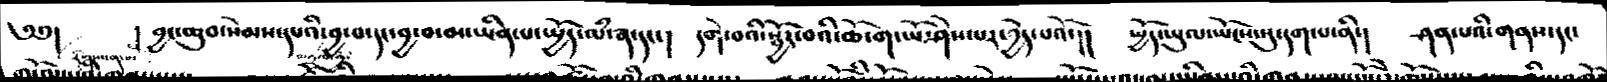༄༅།   །བྱང་ཆུབ་སེམས་དཔའི་བྱ་བ་དང་བྱ་བ་མ་ཡིན་པ་སྤྱོད་ལཾ་སྣ་དང་།    དགེ་བའི་སྦྱོར་བའི་ཆོ་ག་ཡོ་ཤེས་པར་བྱེད་པའོ་།།  སྤྱོད་ཡུལ་ཡོངས་སུ་དག་པ་ནི་།   ཤན་པའི་གནས་དང་
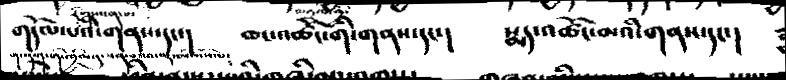གདོལ་པའི་གནས་དང་།  ཆང་འཚོང་གི་གནས་དང་།  སྨད་འཚོང་མའི་གནས་དང་།
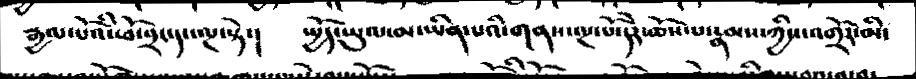རྒྱལ་པོའི་ཕོ་བྲང་དང་ལྔ་སྟེ་།  སྤྱོད་ཡུལ་མ་ཡིན་པའི་གནས་ལྔ་པོ་དེར་ཆོས་པ་རྣམས་ཀྱིས་འགྲོར་མི་
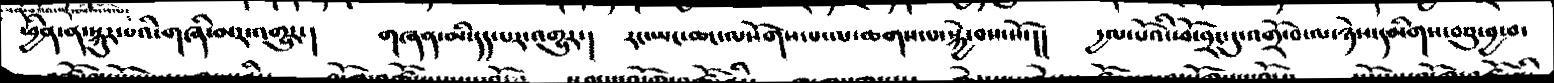ཕྱིན་ན་སྐུར་པའི་གཞི་མར་འགྱུར་།  གཞན་མི་དད་པར་འགྱུར་།  རང་ཡང་ཆང་ལསོགས་པ་ལ་ཆགས་པ་སྐྱེ་བས་སོ་།།   དྱལ་པོའི་ཕོ་བྲང་དུ་འགྲོ་བ་ལ་ཉེས་དམིགས་བཅུ་བྱ་བ་
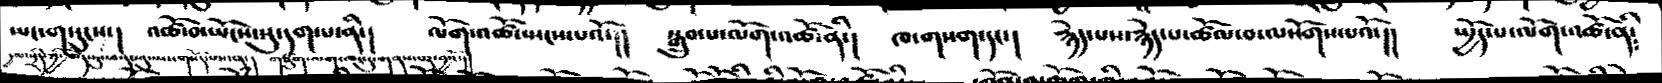ཡང་གསུངས་།  འཚོ་བ་ཡོངས་སུ་དག་པ་ནི་།  ལོག་འཚོ་སྤངས་པའོ་།།  སྒྲུབ་པ་ལོག་འཚོ་ནི་།  ཁ་གསག་དང་།  རྙེད་པས་རྙེད་པ་ཚོལ་བ་ལསོགས་པའོ་།།  སྤྱོད་པ་ལོག་འཚེ་ནི༴
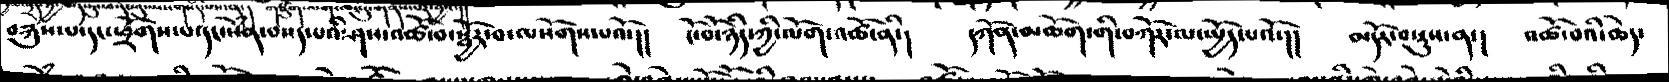བརྐུས་པ་དང་ཕྲོགས་པ་དང་སེཾན་བསད་པའི་ཤས་འཚོ་བ་སྦྱོར་བ་ལསོགས་པའོ་།།  ངོ་བོ་ཉིད་ཀྱི་ལོག་འཚོ་ནི་།  དཀོན་མཆོག་གི་བཀོར་ལ་སྤྱོད་པའོ་།།  མདོར་བསྡུས་ན་།  འཚོ་བའི་ཆེད་
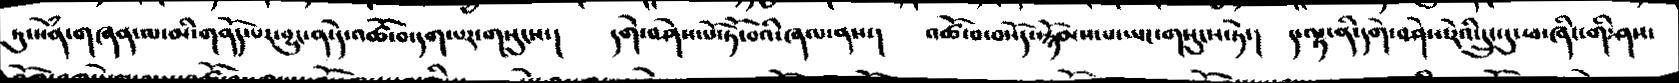ཏུ་སེཾན་གཞན་ལ་མི་གནོད་པར་བྱུང་ན་དེ་འཚོ་བ་དག་པར་གསུངས་།    དགེ་བཤེས་པོ་ཏོ་བའི་ཞལ་ནས་།  འཚོ་བ་བསོད་སྙོམས་པ་ཡང་གསུངས་ཏེ་།   ད་ལྟ་ནི་དགེ་བཤེས་རེའི་དྲུང་དུ་ཕ་ཞིང་གི་ཤས་
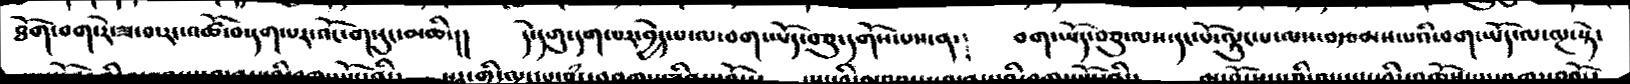ཐོག་བག་རེ་ཟ་བ་རང་འཚོ་བ་དག་པར་འོང་གསུང་མཆི་།།   ད་ེདགུ་དག་པར་བྱེད་པ་ལ་བག་ཡོད་བཅུ་དགོས་པས་ན་༴     བག་ཡོད་བཅུ་ལས་དང་པོ་ལྟུང་པ་ལས་བརྩམས་པའི་བག་ཡོད་ལ་ལྔ་སྟེ་
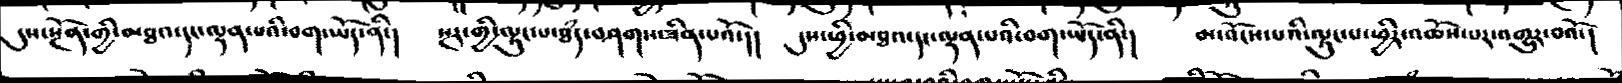དུས་སྔོན་གྱི་མཐའ་དང་ལྡན་པའི་བག་ཡོད་ནི་།   སྔར་གྱི་ལྟུང་པ་ཐཾད་བཤགས་ཟིན་པའོ་།།   དུས་ཕྱི་མཐའ་དང་ལྡན་པའི་བག་ཡོད་ནི་།   མ་འོངས་པའི་ལྟུང་པ་ཕྱིར་འཆོས་པར་འགྱུར་བའོ་།
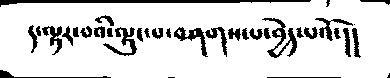ད་ལྟར་བའི་ལྟུང་བ་བཤགས་པ་བྱེད་པའོ་།།
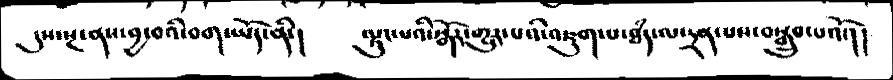དུས་སྔ་ནས་བྱ་བའི་བག་ཡོད་ནི་།    ལྟུང་པའི་སྒོར་གྱུར་པའི་འཇུག་པ་ཐཾད་ལ་དྲན་པས་བསྒྲུབ་པའོ་།།
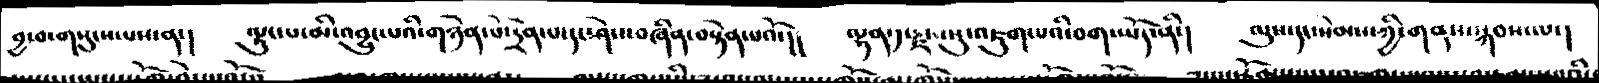བྱ་བ་གསུངས་པས་ན་།   ལྟུང་པ་མི་འབྱུང་པའི་གཉེན་པོ་དྲེན་པ་དང་ཤེས་བཞིན་བསྟེན་པའོ་།།  ལྷན་༡་རྗས་སུ་འཇུག་པའི་བག་ཡོད་ནི་།   ལུས་དང་སེམས་ཀྱི་གནས་སྐབས་ལ་།
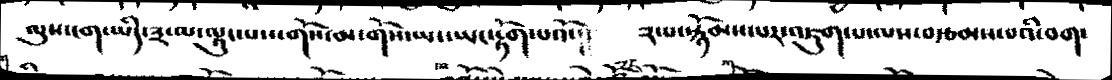ལུས་ངག་ཡིད་༣་ལ་ལྟུང་པས་གོས་མ་གོས་ཡང་ཡང་རྟོག་པའོ་།།  ༢་པ་སྙོམས་པར་འཇུག་པ་ལས་བརྩམས་པའི་བག་
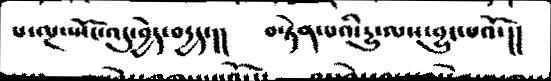པ་ལྔ་སྤོང་འདུ་བྱེད་བདྱད་།།   བསྟེན་པའི་དྱུ་ལས་བྱུང་པའོ་།།
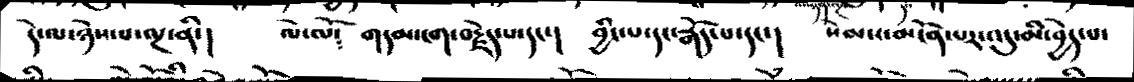དེ་ལ་ཉེས་པ་ལྔ་ནི་།   ལེ་ལོ༴   གདམ་ངག་བརྗེད་པ་དང་།   བྱིང་པ་དང་རྒོད་པ་དང་།    སེམས་མངོན་པར་འདུ་མི་བྱེད་པ་
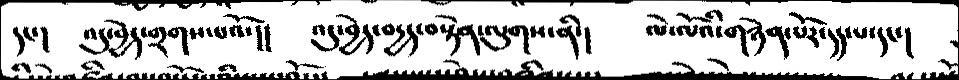དང་།   འདུ་བྱེད་གྲགས་པའོ་།།   འདུ་བྱེད་བདྱད་བསྟེན་ལུགས་ནི་།   ལེ་ལོའི་གཉེན་པོར་དད་པ་དང་།
